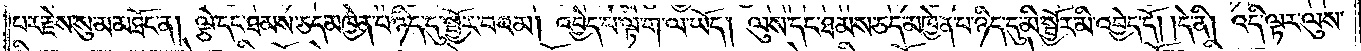པར་རྗེས་སུ་མ་མཐོང་ན། ལྕེ་དང་ཐམས་ཅད་མཁྱེན་པ་ཉིད་དུ་སྤྱོད་བའམ། འབྱེད་པ་ལྟ་ག་ལ་ཡོད། ལུས་དང་ཐམས་ཅད་མཁྱེན་པ་ཉིད་དུ་མི་སྦྱོར་མི་འབྱེད་དོ། །དེ་ནི། འདི་ལྟར་ལུས་
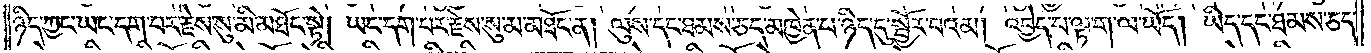ཉིད་ཀྱང་ཡང་དག་པར་རྗེས་སུ་མི་མཐོང་སྟེ། ཡང་དག་པར་རྗེས་སུ་མ་མཐོང་ན། ལུས་དང་ཐམས་ཅད་མཁྱེན་པ་ཉིད་དུ་སྦྱོར་བའམ། འབྱེད་པ་ལྟ་ག་ལ་ཡོད། ཡིད་དང་ཐམས་ཅད་
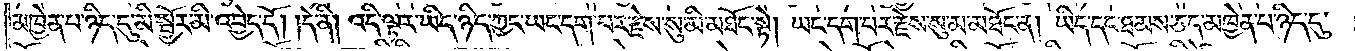མཁྱེན་པ་ཉིད་དུ་མི་སྦྱོར་མི་འབྱེད་དོ། །དེ་ནི། འདི་ལྟར་ཡོད་ཉིད་ཀྱང་ཡང་དག་པར་རྗེས་སུ་མི་མཐོང་སྟེ། ཡང་དག་པར་རྗེས་སུ་མ་མཐོང་ན། ཡིད་དང་ཐམས་ཅད་མཁྱེན་པ་ཉིད་དུ་
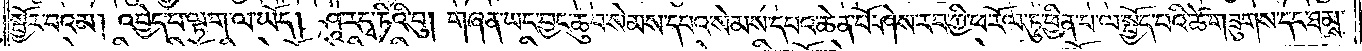སྦྱོར་བའམ། འབྱེད་པ་ལྟ་ག་ལ་ཡོད། ཤཱ་ར་དྭ་ཏིའི་བུ། གཞན་ཡང་བྱང་ཆུབ་སེམས་དཔའ་སེམས་དཔའ་ཆེན་པོ་ཤེས་རབ་ཀྱི་ཕ་རོལ་ཏུ་ཕྱིན་པ་ལ་སྤྱོད་པའི་ཚེ་གཟུགས་དང་ཐམས་
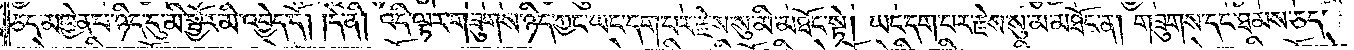ཅད་མཁྱེན་པ་ཉིད་དུ་མི་སྦྱོར་མི་འབྱེད་དོ། །དེ་ནི། འདི་ལྟར་གཟུགས་ཉིད་ཀྱང་ཡང་དག་པར་རྗེས་སུ་མི་མཐོང་སྟེ། ཡང་དག་པར་རྗེས་སུ་མ་མཐོང་ན། གཟུགས་དང་ཐམས་ཅད་
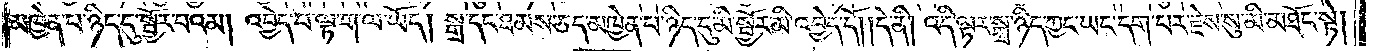མཁྱེན་པ་ཉིད་དུ་སྦྱོར་བའམ། འབྱེད་པ་ལྟ་ག་ལ་ཡོད། སྒྲ་དང་ཐམས་ཅད་མཁྱེན་པ་ཉིད་དུ་མི་སྦྱོར་མི་འབྱེད་དོ། །དེ་ནི། འདི་ལྟར་སྒྲ་ཉིད་ཀྱང་ཡང་དག་པར་རྗེས་སུ་མི་མཐོང་སྟེ།
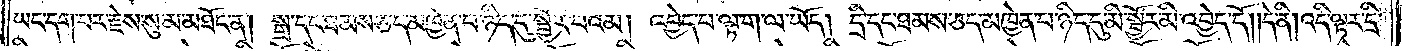ཡང་དག་པར་རྗེས་སུ་མ་མཐོང་ན། སྒྲ་དང་ཐམས་ཅད་མཁྱེན་པ་ཉིད་དུ་སྦྱོར་བའམ། འབྱེད་པ་ལྟ་ག་ལ་ཡོད། དྲི་དང་ཐམས་ཅད་མཁྱེན་པ་ཉིད་དུ་མི་སྦྱོར་མི་འབྱེད་དོ། །དེ་ནི། འདི་ལྟར་དྲི་
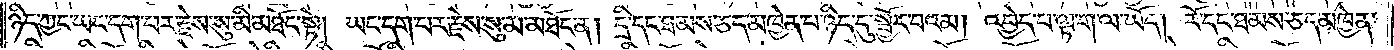ཉིད་ཀྱང་ཡང་དག་པར་རྗེས་སུ་མི་མཐོང་སྟེ། ཡང་དག་པར་རྗེས་སུ་མ་མཐོང་ན། དྲི་དང་ཐམས་ཅད་མཁྱེན་པ་ཉིད་དུ་སྦྱོར་བའམ། འབྱེད་པ་ལྟ་ག་ལ་ཡོད། རོ་དང་ཐམས་ཅད་མཁྱེན་
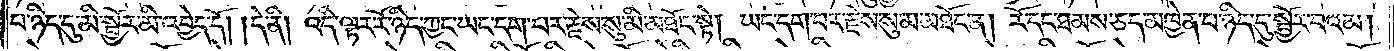པ་ཉིད་དུ་མི་སྦྱོར་མི་འབྱེད་དོ། །དེ་ནི། འདི་ལྟར་རོ་ཉིད་ཀྱང་ཡང་དག་དག་པར་རྗེས་སུ་མི་མཐོང་སྟེ། ཡང་དག་པར་རྗེས་སུ་མ་མཐོང་ན། རོ་དང་ཐམས་ཅད་མཁྱེན་པ་ཉིད་དུ་སྦྱོར་བའམ།
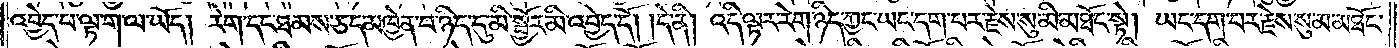འབྱེད་པ་ལྟ་ག་ལ་ཡོད། རེག་དང་ཐམས་ཅད་མཁྱེན་པ་ཉིད་དུ་མི་སྦྱོར་མི་འབྱེད་དོ། །དེ་ནི། འདི་ལྟར་རེག་ཉིད་ཀྱང་ཡང་དག་པར་རྗེས་སུ་མི་མཐོང་སྟེ། ཡང་དག་པར་རྗེས་སུ་མ་མཐོང་
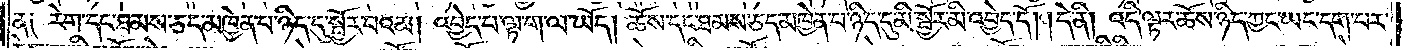ན༑ རེག་དང་ཐམས་ཅད་མཁྱེན་པ་ཉིད་དུ་སྦྱོར་བའམ། འབྱེད་པ་ལྟ་ག་ལ་ཡོད། ཆོས་དང་ཐམས་ཅད་མཁྱེན་པ་ཉིད་དུ་མི་སྦྱོར་མི་འབྱེད་དོ། །དེ་ནི། འདི་ལྟར་ཆོས་ཉིད་ཀྱང་ཡང་དག་པར་
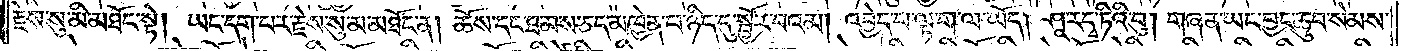རྗེས་སུ་མི་མཐོང་སྟེ། ཡང་དག་པར་རྗེས་སུ་མ་མཐོང་ན། ཆོས་དང་ཐམས་ཅད་མཁྱེན་པ་ཉིད་དུ་སྦྱོར་བའམ། འབྱེད་པ་ལྟ་ག་ལ་ཡོད། ཤཱ་ར་དྭ་ཏིའི་བུ། གཞན་ཡང་བྱང་ཆུབ་སེམས་
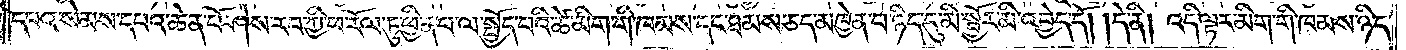དཔའ་སེམས་དཔའ་ཆེན་པོ་ཤེས་རབ་ཀྱི་ཕ་རོལ་ཏུ་ཕྱིན་པ་ལ་སྤྱོད་པའི་ཚེ་མིག་གི་ཁམས་དང་ཐམས་ཅད་མཁྱེན་པ་ཉིད་དུ་མི་སྦྱོར་མི་འབྱེད་དོ། །དེ་ནི། འདི་ལྟར་མིག་གི་ཁམས་ཉིད་
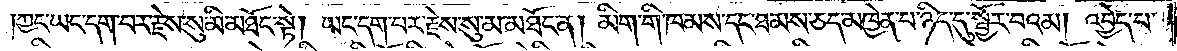ཀྱང་ཡང་དག་པར་རྗེས་སུ་མི་མཐོང་སྟེ། ཡང་དག་པར་རྗེས་སུ་མ་མཐོང་ན། མིག་གི་ཁམས་དང་ཐམས་ཅད་མཁྱེན་པ་ཉིད་དུ་སྦྱོར་བའམ། འབྱེད་པ་
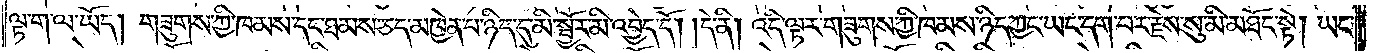ལྟ་ག་ལ་ཡོད། གཟུགས་ཀྱི་ཁམས་དང་ཐམས་ཅད་མཁྱེན་པ་ཉིད་དུ་མི་སྦྱོར་མི་འབྱེད་དོ། །དེ་ནི། འདི་ལྟར་གཟུགས་ཀྱི་ཁམས་ཉིད་ཀྱང་ཡང་དག་པར་རྗེས་སུ་མི་མཐོང་སྟེ། ཡང་
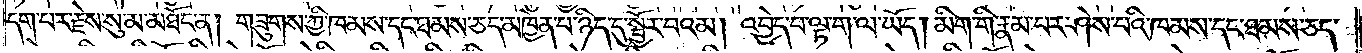དག་པར་རྗེས་སུ་མ་མཐོང་ན། གཟུགས་ཀྱི་ཁམས་དང་ཐམས་ཅད་མཁྱེན་པ་ཉིད་དུ་སྦྱོར་བའམ། འབྱེད་བ་ལྟ་ག་ལ་ཡོད། མིག་གི་རྣམ་པར་ཤེས་པའི་ཁམས་དང་ཐམས་ཅད་
